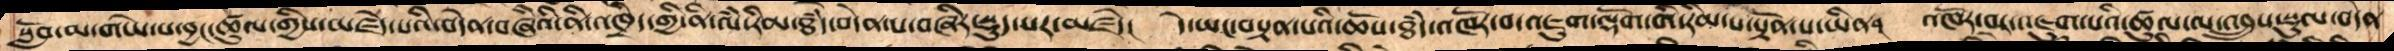སློབ་མ་གཡེ་པ་བྱང་ཚུལ་གྱིས་མཛེད་པའི་བདེན་བཞིའི་ནི་འཁྲིད་གྱི་ནི་ལྃ་རིམ་ཐྃད་བདེན་པ་བཞིར་སྡུད་པར་མཛེད། དེ་ཡང་བསྟན་པའི་ཆོས་ཐྃད་འཁོར་བ་འཇུག་ལྡོག་གི་རིམ་པ་སྟོན་པ་ཡིན། འཁོར་བར་འཇུག་པའི་ཚུལ་ལ་འབྲུས་བུ་སྡུལ་བདེན
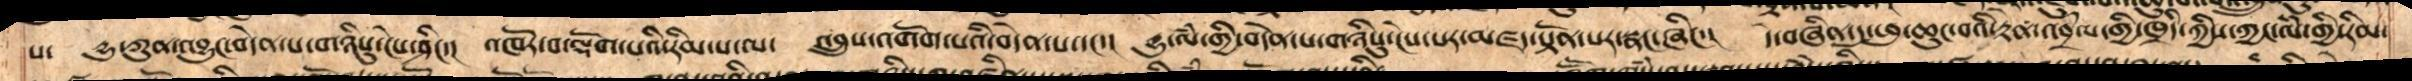པ་ དྱུ་ཀུན་འབྱུང་བདེན་པ་གཉིསུ་ངེས་ཤིང་། འཁོར་བ་ལྡོག་པའི་རིམ་པ་ལ་ འབྲུས་འགོག་པའི་བདེན་པ་དང་། དྱུ་ལྃ་གྱི་བདེན་པ་གཉིསུ་ངེས་པར་མཛད་སྟོན་པར་སྣང་ཞིང་། དེ་བཞིན་དུ་ཕུ་ཆུང་པའི་རྟེན་འབྲེལ་གྱི་ཁྲིད་ཀྱིས་ཀྱང་ལྃ་གྱི་རིམ་
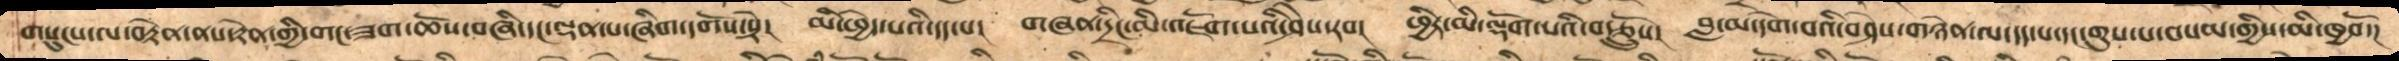གསུངས་ལ་བརྟེན་ནས་རྟེན་གྱི་གང་ཟག་ཆོས་བཞི་དང་ལྡན་པ་ཞིག་དགོས་སྟེ། མི་ཕྱེད་པའི་དད་པ། གཞན་དྲིང་མི་འཇོག་པའི་ཤེས་རབ། ཕྱིར་མི་ལྡོག་པའི་བརྩྲོུས། བླ་མ་དགེ་བའི་བཤེས་གཉེན་ལ་དད་པ་དང་གུས་པ་བསམ་གྱིས་མི་ཁྱབོ་།
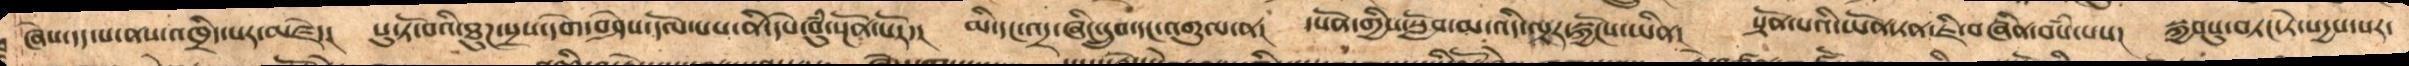ཞེས་དད་པ་ནས་འཁྲིད་པར་མཛེད། པུ་ཏོ་བའི་ཐུཌ་སྲས་དགེ་བཤེས་དོལ་པས་ནི་དཔེ་བུྃ་སྔོན་པར། མི་དང་འདྲ་ཞིང་དྲུབ་དང་འགུལ་ན། དཔོན་གྱི་སློབ་མ་འདི་ལྟར་སྐྱོངས་ཡིན། སྟོན་པའི་ཡོན་ཏན་ཇི་བཞིན་བསྃ་པས། སྐྱབསུ་བཏང་ཏེ་་སདྱས་པར་
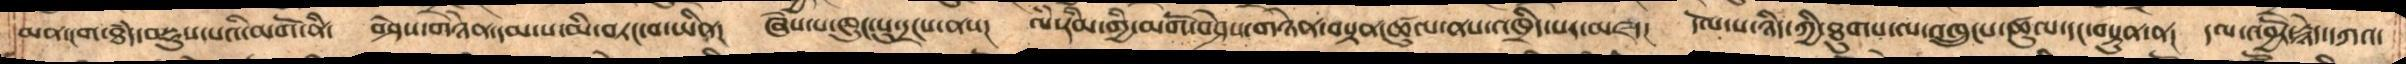མན་ངག་ཐྃད་བསྡུས་པའི་མགོ་ནི། བཤེས་གཉེན་དམ་པ་མི་བཏང་བ་ཡིན། ཞེས་པ་ཁུང་སུ་དྲངས་ནས། ལྃ་རིམ་གྱི་མགོ་བཤེས་གཉེན་བསྟན་ཚུལ་ནས་འཁྲིད་པར་མཛད།  དོལ་པ་ཉིད་ཀྱི་ཐུགས་ལ་འཁྲུངས་ཚུལ་དང་བསྟུན་ན། དལ་འབྱོར་རྙེད་དཀའ་
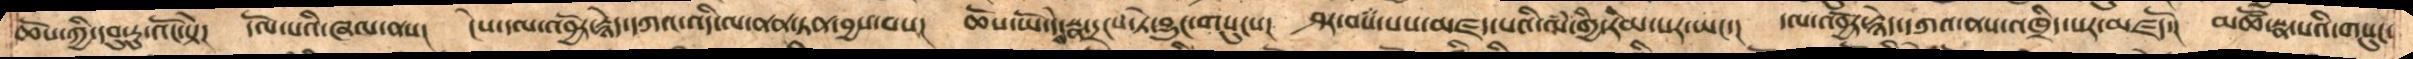ཆོས་ཀྱི་དབུ་རུ་འོང་སྟེ། དོལ་པའི་ཞལ་ནས། ངེས་དལ་འབྱོར་རྙེད་དཀའ་འདི་ལ་ནན་ཏན་བྱས་བས། ཆོས་ཡོ་དེས་སྣ་དྲངས་ཏེ་བྱུང་གསུངས། ཤར་བསྃ་པས་མཛད་པའི་ལྃ་རིམ་གྱི་རིམ་པར་ཡང་། དལ་འབྱོར་རྙེད་དཀའ་ནས་འཁྲིད་པར་མཛདོ་།  མཚོ་སྣ་པའི་གསུང་
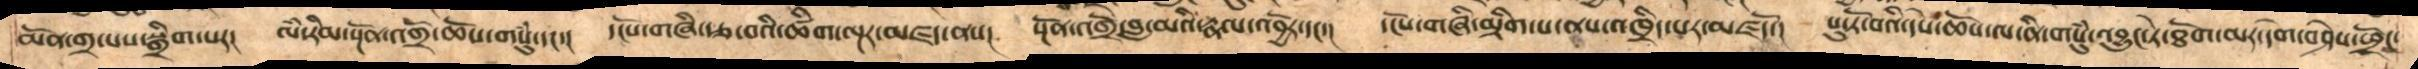མོན་གྲ་པས་སྒྲིག་པར། ལྃ་རིམ་སྔོན་འགྲོ་ཆོས་གསུྃ་དང་། དངོས་གཞི་རྩ་བའི་ཚིག་ལྔར་མཛད་ནས། སྔོན་འགྲོ་བླ་མའི་རྣལ་འབྱོར་དང་། དངོས་གཞི་མྲིག་པ་ནས་འཁྲིད་པར་མཛདོ་། པུ་ཏོ་བའི་དཔེ་ཆོས་ལ་ནི་གསུྃ་འབྱུང་ཏེ་ཐོག་མར་དགེ་བཤེས་ཕྲོང་
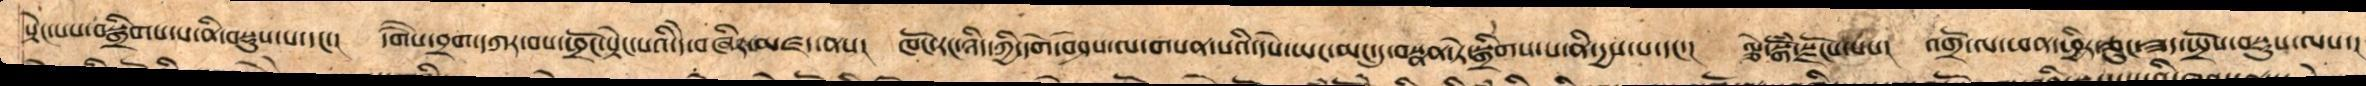སྟེང་་པས་བསྒྲིགས་པ་ནི་བསྡུས་པ་དང་། དགཻས་བྲག་དཀར་བས་ཕྲོང་སྟེང་པའི་དེ་བཞིར་མཛད་ནས། ཁོང་རང་ཉིད་ཀྱི་དགེ་བཤེས་ལ་གསན་པའི་དཔེ་ཡང་མང་དུ་བསྣན་ཏེ་སྒྲིགས་པ་ནི་དྱས་པ་དང་། ལྕེ་སྒོྃ་སྫོངས་པས། འགྲོ་ལ་ཕན་ཕྱིར་ཅུང་ཟད་སྤྲོས་བསྡུས་ལས་།
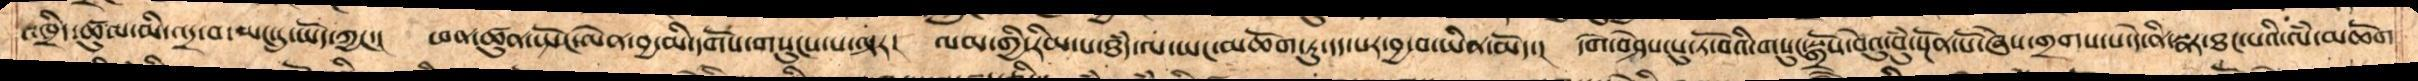འཁྲིད་ཚུལ་མི་འདྲ་བ་མང་དུ་ཡོད་ཀྱང་། ཕན་ཚུན་སྤོང་ལེན་བྱ་མི་དགོས་གསུངས་པ་ལྟར། ལམ་གྱི་རིམ་པ་ཐྃད་ལ་ཡང་མཆོག་ཏུ་དད་པར་བྱ་བ་ཡིན་མོད། དགེ་བཤེས་པུ་ཏོ་བའི་གསུང་སྒྲོས་བེའུ་བུྃ་སྔོན་པོ་ཞེས་གྲགས་པ་དེ་ནི་སྣར་ཐང་པའི་ལྃ་མཆོག་
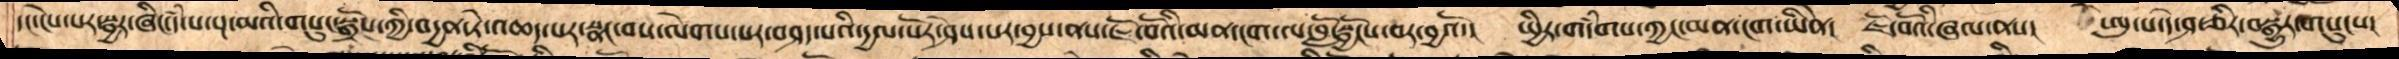དང་ངེས་པར་སྦྱར་ཞིང་དཾ་པ་སྔ་མའི་གསུང་སྒྲོས་ཀྱི་བདྱན་ཏེ་འཆད་པར་སྣང་བས་ལེགས་པར་བཤད་པའི་དྱལ་པོར་ཤེས་པར་བྱས་ནས་ཇོ་བོའི་མན་ངག་ལ་བློ་སྦྱོངས་བར་བྱའོ་།    སྤྱིར་གདཾགས་ཀྱང་མན་ངག་ཡིནེ།  ཇོ་བོའི་ཞལ་ནས་།  ཨུ་པ་དེ་ཤ་ཅིར་སྒྱུར་གསུངས་
